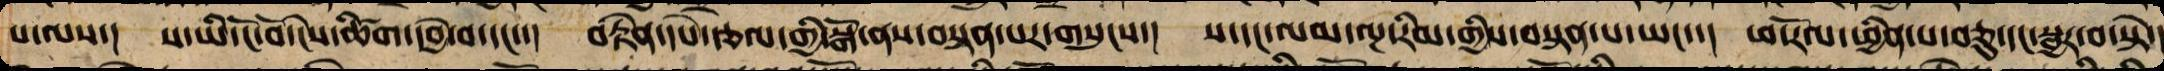པ་ལས་། ས་ཡི་ངོ་བོ་ངེས་ཚིག་དབྱེ་བ་དང་། བརྟེན་དཔེ་རྩལ་གྱི་སྒོ་ནས་སྟོན་པར་གསུངས་། ས་དང་ལམ་ལྔ་རིམ་གྱིས་བསྟན་པ་ཡང་། ཕ་རོལ་ཕྱིན་པ་བཅུ་དང་སྦྱར་བ་སྟེ་།
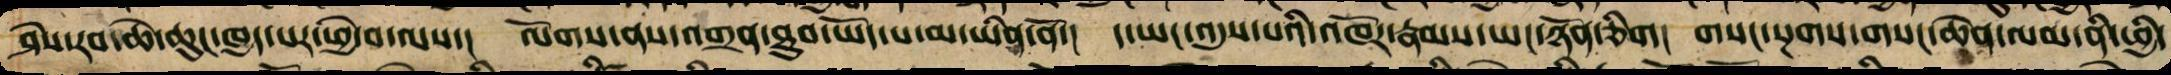ཤེས་རབ་ཆེ་ཆུང་ཁྱད་པར་ཕྱེ་བ་ལས་། ལོག་ནས་འགྲན་ཐུབ་ཡོད་པ་མ་ཡིན་ནོ་། ད་ཡང་འདུས་པའི་འཁོར་རྣམས་ཡང་ཉོན་ཅིག། གསང་སྔགས་གསང་ཆེན་ལམ་ནི་ཕྱི་
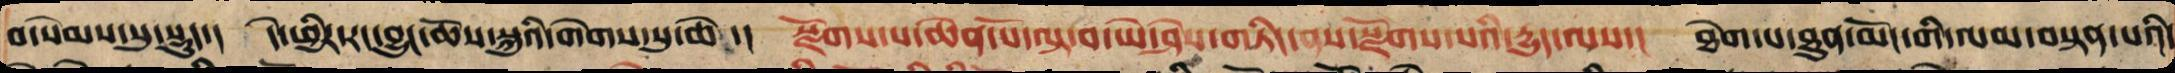བ་སེམས་སུ་སྡུད་། དེ་ཕྱིར་རང་བྱུང་ཆོས་སྐུའི་གེགས་སུ་ཆེ་། སྫོགས་པ་ཆེན་པོ་བལྟ་བ་ཡེ་ཤེས་གཏིང་ནས་སྫོགས་པའི་རྒྱུད་ལས་། ཐེག་པ་ཐུན་མོང་གི་ལམ་བསྟན་པའི་
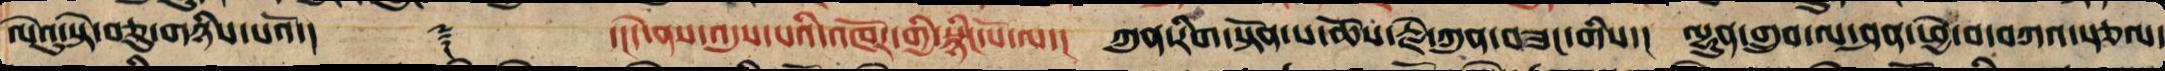ལེའུ་སྟེ་བཅུ་གཉིས་པའོ་།། ༈ ་།།དེ་ནས་འདུས་པའི་འཁོར་གྱི་སྙིང་པོ་ལ་། ཀུན་རིག་སྟོན་པ་ཆོས་རྗེ་ཀུན་བཟང་གིས་། ལྷུན་གྲུབ་ལ་ཤན་དབྱེ་བ་བཀའ་སྩལ་
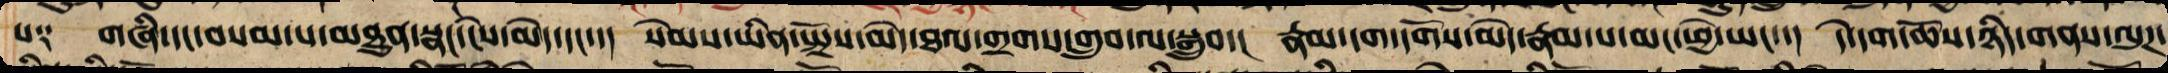པ༑ གཞི་དང་བསམ་པ་མཐུན་སྣང་ངེས་མེད་དང་། སེམས་ཡིན་སྤྲོས་མེད་ཐལ་གྲགས་གྲུབ་ལ་སྒྲུབ་། རྣམ་དག་དགོས་མེད་རྣམ་པ་མང་ཕྱེ་ཡང་། དེ་དག་ཆོས་ཉིད་གནས་ལུཌ་
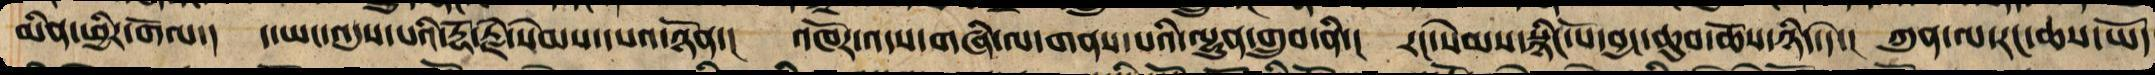མིན་ཕྱིར་གོལ་། ད་ཡང་འདུས་པའི་རྡོ་རྗེ་སེམས་དཔའ་ཉོན་། འཁོར་འདས་གཞི་ལ་གནས་པའི་ལྷུན་གྲུབ་ནི་། རང་སེམས་སྙིང་པོ་བྱང་ཆུབ་ཆོས་ཉིད་དེ་། ཀུན་ལ་རང་ཆས་ཡོད་
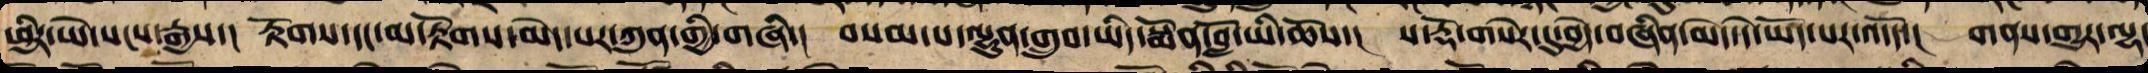ཕྱིར་ཡེ་སངས་རྒྱས་། རྟོགས་དང་མ་རྟོགས་མེད་པར་ཀུན་གྱི་གཞི་། བསམ་པ་ལྷུན་གྲུབ་ཡིད་སྨོན་བློ་ཡི་ཆོས་། ས་རྡོ་གསེར་དུ་བྱེད་བཞིན་མེད་དེ་ཡོད་པར་འདོད་། གནས་འགྱུར་ལྷ་
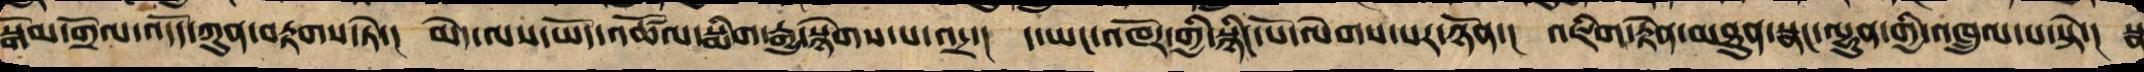སྒོམ་གྲོལ་འདོད་ཀུན་བརྟགས་ཏེ་། མེད་ལས་ཡོད་འཚོལ་སྨིག་རྒྱུ་བསྙེག་པ་འདྲ་། ད་ཡང་འཁོར་གྱི་སྙིང་པོ་ལེགས་པར་ཉོན་། འཇིག་རྟེན་མཐུན་སྣང་ལྷུན་གྲུབ་འཁྲུལ་པ་སྟེ་། སྣ
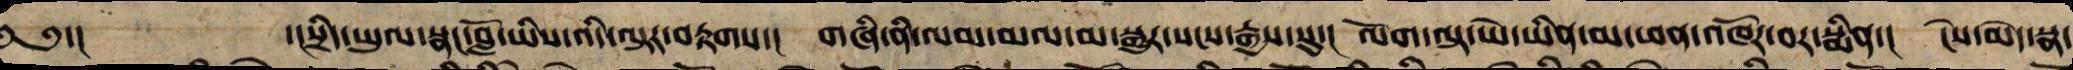༄༅་། ་།སྲིད་ཡུལ་སྣང་བློ་ཡིས་འདི་ལྟར་བརྟགས་། གཞི་ནི་ལམ་ལ་མ་བསྒྱུར་སངས་རྒྱས་སུ་། ལོག་ལྟ་ཡེ་ཡིན་མི་ཕན་འཁོར་བར་སྨིན་། ངེས་མེད་སྣ་
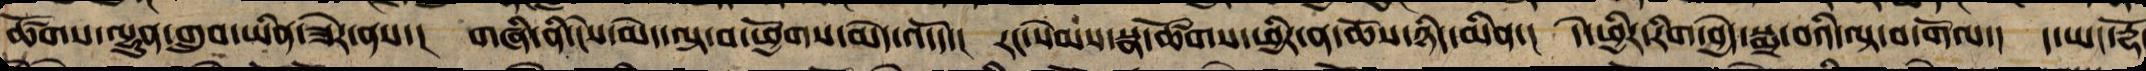ཚོགས་ལྷུན་གྲུབ་ཡིན་ཟེར་ནས་། གཞི་ནི་ངེས་མེད་བལྟ་བ་ཕྱོགས་མེད་འདོད་། རང་སེམས་སྣ་ཚོགས་ཕྱིར་ན་ཆོས་ཉིད་མིན་། དེ་ཕྱིར་རིག་བྱེད་སྨྲ་བའི་བལྟ་བར་གོལ་། ད་ཡང་རྡོ་
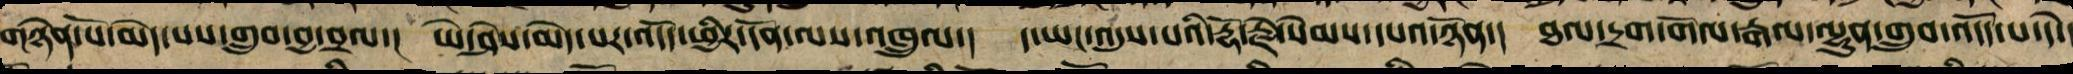གཉེན་པོ་མེད་པས་གྲུབ་བྱ་བྲལ་། ཡེ་ཤེས་མེད་པར་འདོད་ཕྱིར་དོན་ལས་འཁྲུལ་། ད་ཡང་འདུས་པའི་རྡོ་རྗེ་སེམས་དཔའ་ཉོན་། ཐལ་དྲག་གོལ་རྒལ་ལྷུན་གྲུབ་འདོད་པ་དེ་།
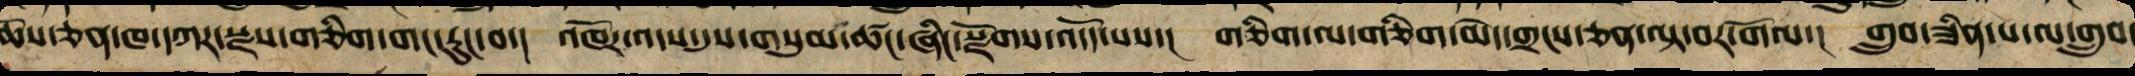ཆོས་ཅན་ཁ་དཀར་སྫས་ཅིག་གང་རུང་བ་། འཁོར་འདས་དུས་གསུམ་ཚང་ཞིང་སྫོགས་འདོད་པས་། གཅིག་ལ་གཅིག་མེད་གྲངས་ཅན་ལྟ་བར་གོལ་། གྲུབ་ཟིན་པ་ལ་གྲུབ་
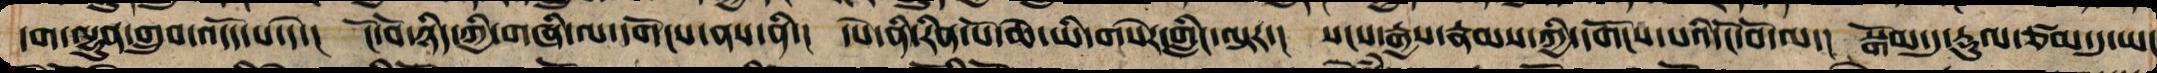དག་ལྷུན་གྲུབ་འདོད་པ་དེ་། ངོ་བོ་ཉིད་ཀྱི་གཞི་ལ་དགོངས་ནས་ནི་། དཔེ་ནི་རིན་པོ་ཆེ་ཡི་གསེར་གླིང་ལྟར་། སངས་རྒྱས་རྣམས་ཀྱི་དགོངས་པའི་ངོ་བོ་ལ་། སྒོམ་དུ་རྡུལ་ཙམ་དུ་ཡང
